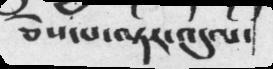ཅེས་པ་ལྟར་འདུལ་
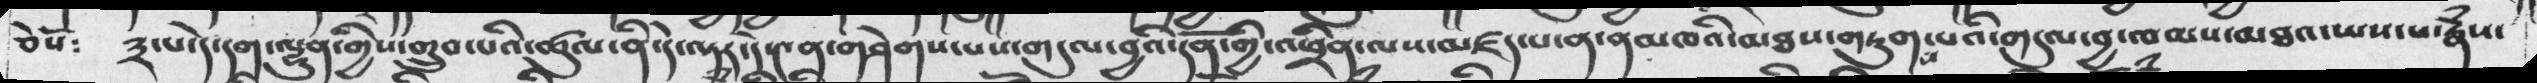ཅེསོ༴  ༣་པ་དེ་དག་ལྷུན་གྱིས་གྲུབ་པའི་ཚུལ་ནི་དེ་ལྟར་དེ་༤ན་གཤེགས་པས་གདུལ་བྱའི་དོན་གྱི་འཕྲིན་ལས་མཛད་པ་ནམཁའི་མཐས་གཏུགས་པའི་གདུལ་བྱ་ལམས་མཐའ་ཡས་པ་རྣཾས་
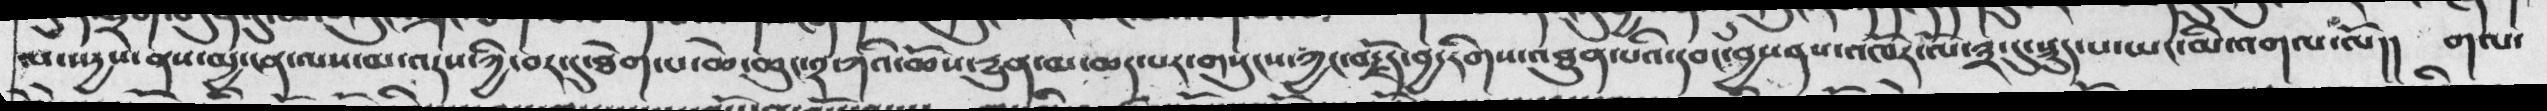ལ་སདྱས་ནས་མྱ་ངན་ལས་མ་འདས་ཀྱི་བར་དུ་ཐེག་པ་ཆེ་ཆུང་༢་ཀའི་ཆོས་དྱུན་མ་ཆད་པར་གསུངས་ཀྱང་བརྗོད་བྱ་རིགས་འཐུན་པའི་དབང་བྱས་ནས་འཁོར་ལོ་༣་དུ་སྡུད་པ་ཡང་མི་འགལ་ལོ།།  གལ་
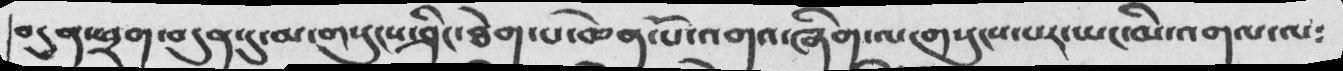བདུན་ཕྲག་བདུན་དུ་མ་གསུངས་ཤིང་ཐེག་པ་ཆེན་པོ་འགའ་ཞིག་ལ་གསུངས་པར་ཡང་མི་འགལ་ལ༴
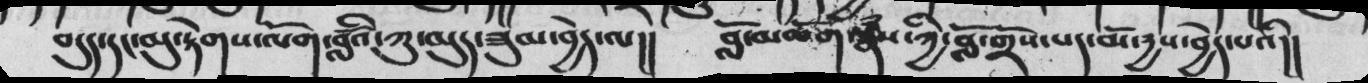བདུད་དང་མུ་རྟེགས་ལོག་བློའི་ཀུ་མུད་ཟུམ་བྱེད་ལ།།  བློ་མཆོག་རྣཾས་ཀྱི་བློ་གྲོས་པད་མོ་དྱས་བྱེད་པའི།།
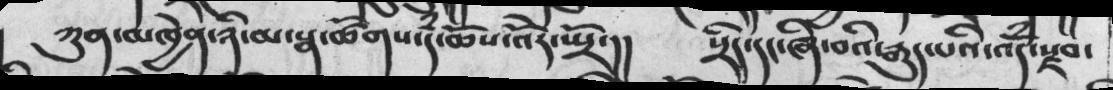ཀུན་མཁྱེན་ཉི་མ་སྣ་ཚོགས་དཾ་ཆོས་འོེར་སྤྲོ་།།   སྲིད་དང་ཞི་བའི་རྒུད་པའི་འདཾ་རྫབ་
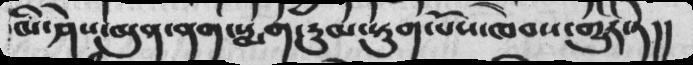མི་ཤེས་མུན་ནག་སྨག་རུམ་སྟུག་པོས་ཁེབས་གྱུར་ཏེ།།
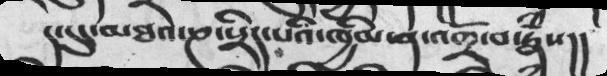ད་དུང་མཐའ་ཎ་སྲིད་པའི་ཁྱིམ་ན་འགྲོ་བ་རྣཾས།།
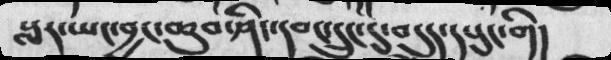སླར་ཡང་བྱང་ཆུབ་ཤིང་དབང་དྲུང་དུ་བདུད་དཔུང་གི།
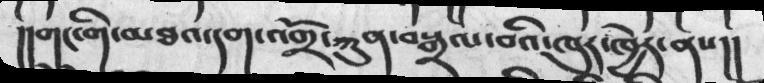།།གང་གི་མཐའ་དག་འགྲོ་ཀུན་བསྒྲལ་བའི་ཁུར་ཁྱེར་ནས།།
